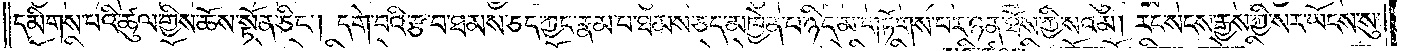དམིགས་པའི་ཚུལ་གྱིས་ཆོས་སྟོན་ཅིང༌། དགེ་བའི་རྩ་བ་ཐམས་ཅད་ཀྱང་རྣམ་པ་ཐམས་ཅད་མཁྱེན་པ་ཉིད་མ་གཏོགས་པ་ཉན་ཐོས་ཀྱི་སའམ། རང་སངས་རྒྱས་ཀྱི་སར་ཡོངས་སུ་
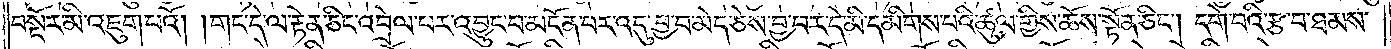བསྔོར་མི་འཇུག་པའོ། །གང་དེ་ལ་རྟེན་ཅིང་འབྲེལ་པར་འབྱུང་བ་མངོན་པར་འདུ་བྱ་བ་མེད་ཅེས་བྱ་བར་དེ་མི་དམིགས་པའི་ཚུལ་གྱིས་ཆོས་སྟོན་ཅིང༌། དགེ་བའི་རྩ་བ་ཐམས་
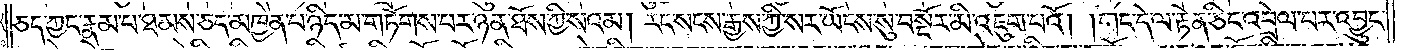ཅད་ཀྱང་རྣམ་པ་ཐམས་ཅད་མཁྱེན་པ་ཉིད་མ་གཏོགས་པར་ཉན་ཐོས་ཀྱི་སའམ། རང་སངས་རྒྱས་ཀྱི་སར་ཡོངས་སུ་བསྔོར་མི་འཇུག་པའོ། །གང་དེ་ལ་རྟེན་ཅིང་འབྲེལ་པར་འབྱུང་
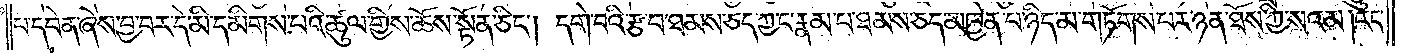པ་དབེན་ཞེས་བྱ་བར་དེ་མི་དམིགས་པའི་ཚུལ་གྱིས་ཆོས་སྟོན་ཅིང༌། དགེ་བའི་རྩ་བ་ཐམས་ཅད་ཀྱང་རྣམ་པ་ཐམས་ཅད་མཁྱེན་པ་ཉིད་མ་གཏོགས་པར་ཉན་ཐོས་ཀྱི་སའམ། རང་
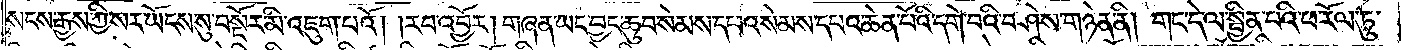སངས་རྒྱས་ཀྱི་སར་ཡོངས་སུ་བསྔོར་མི་འཇུག་པའོ། །རབ་འབྱོར། གཞན་ཡང་བྱང་ཆུབ་སེམས་དཔའ་སེམས་དཔའ་ཆེན་པོའི་དགེ་བའི་བཤེས་གཉེན་ནི། གང་དེ་ལ་སྦྱིན་པའི་ཕ་རོལ་ཏུ་
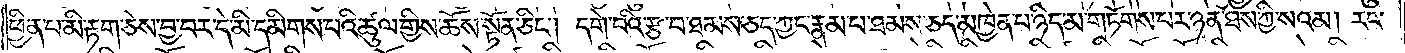ཕྱིན་པ་མི་རྟག་ཅེས་བྱ་བར་དེ་མི་དམིགས་པའི་ཚུལ་གྱིས་ཆོས་སྟོན་ཅིང༌། དགེ་བའི་རྩ་བ་ཐམས་ཅད་ཀྱང་རྣམ་པ་ཐམས་ཅད་མཁྱེན་པ་ཉིད་མ་གཏོགས་པར་ཉན་ཐོས་ཀྱི་སའམ། རང་
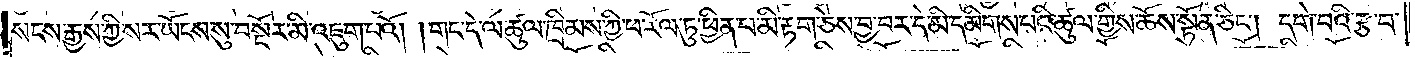སངས་རྒྱས་ཀྱི་སར་ཡོངས་སུ་བསྔོར་མི་འཇུག་པའོ། །གང་དེ་ལ་ཚུལ་ཁྲིམས་ཀྱི་ཕ་རོལ་ཏུ་ཕྱིན་པ་མི་རྟག་ཅེས་བྱ་བར་དེ་མི་དམིགས་པའི་ཚུལ་གྱིས་ཆོས་སྟོན་ཅིང༌། དགེ་བའི་རྩ་བ་
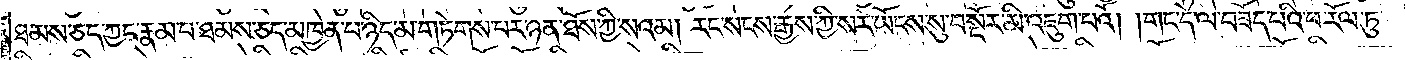ཐམས་ཅད་ཀྱང་རྣམ་པ་ཐམས་ཅད་མཁྱེན་པ་ཉིད་མ་གཏོགས་པར་ཉན་ཐོས་ཀྱི་སའམ། རང་སངས་རྒྱས་ཀྱི་སར་ཡོངས་སུ་བསྔོར་མི་འཇུག་པའོ། །གང་དེ་ལ་བཟོད་པའི་ཕ་རོལ་ཏུ་
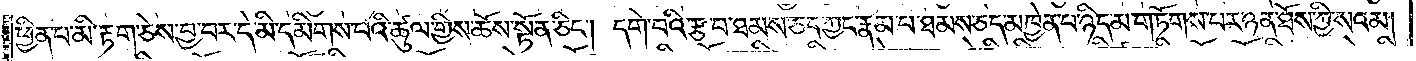ཕྱིན་པ་མི་རྟག་ཅེས་བྱ་བར་དེ་མི་དམིགས་པའི་ཚུལ་གྱིས་ཆོས་སྟོན་ཅིང༌། དགེ་བའི་རྩ་བ་ཐམས་ཅད་ཀྱང་རྣམ་པ་ཐམས་ཅད་མཁྱེན་པ་ཉིད་མ་གཏོགས་པར་ཉན་ཐོས་ཀྱི་སའམ།
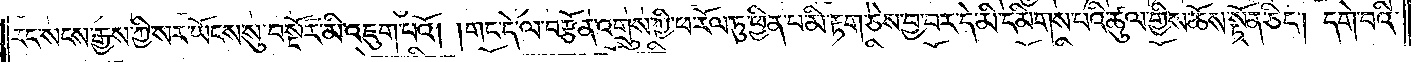རང་སངས་རྒྱས་ཀྱི་སར་ཡོངས་སུ་བསྔོར་མི་འཇུག་པའོ། །གང་དེ་ལ་བརྩོན་འགྲུས་ཀྱི་ཕ་རོལ་ཏུ་ཕྱིན་པ་མི་རྟག་ཅེས་བྱ་བར་དེ་མི་དམིགས་པའི་ཚུལ་གྱིས་ཆོས་སྟོན་ཅིང༌། དགེ་བའི་
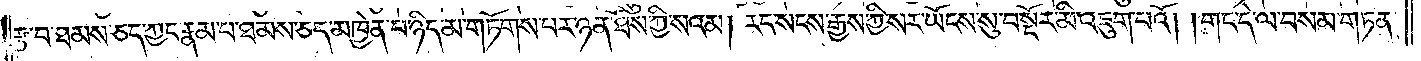རྩ་བ་ཐམས་ཅད་ཀྱང་རྣམ་པ་ཐམས་ཅད་མཁྱེན་པ་ཉིད་མ་གཏོགས་པར་ཉན་ཐོས་ཀྱི་སའམ། རང་སངས་རྒྱས་ཀྱི་སར་ཡོངས་སུ་བསྔོར་མི་འཇུག་པའོ། །གང་དེ་ལ་བསམ་གཏན་
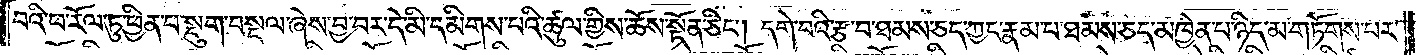བའི་ཕ་རོལ་ཏུ་ཕྱིན་པ་སྡུག་བསྔལ་ཞེས་བྱ་བར་དེ་མི་དམིགས་པའི་ཚུལ་གྱིས་ཆོས་སྟོན་ཅིང༌། དགེ་བའི་རྩ་བ་ཐམས་ཅད་ཀྱང་རྣམ་པ་ཐམས་ཅད་མཁྱེན་པ་ཉིད་མ་གཏོགས་པར་
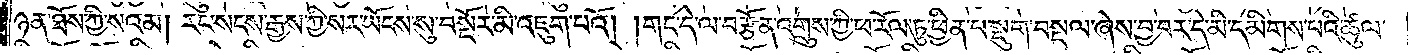ཉན་ཐོས་ཀྱི་སའམ། རང་སངས་རྒྱས་ཀྱི་སར་ཡོངས་སུ་བསྔོར་མི་འཇུག་པའོ། །གང་དེ་ལ་བརྩོན་འགྲུས་ཀྱི་ཕ་རོལ་ཏུ་ཕྱིན་པ་སྡུག་བསྔལ་ཞེས་བྱ་བར་དེ་མི་དམིགས་པའི་ཚུལ་
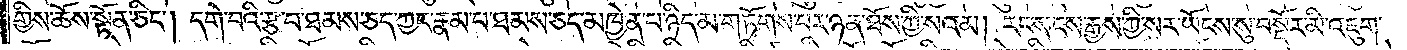གྱིས་ཆོས་སྟོན་ཅིང༌། དགེ་བའི་རྩ་བ་ཐམས་ཅད་ཀྱང་རྣམ་པ་ཐམས་ཅད་མཁྱེན་པ་ཉིད་མ་གཏོགས་པར་ཉན་ཐོས་ཀྱི་སའམ། རང་སངས་རྒྱས་ཀྱི་སར་ཡོངས་སུ་བསྔོར་མི་འཇུག་
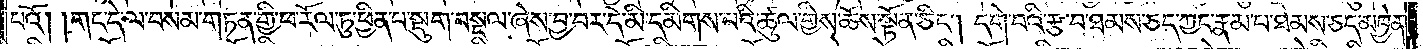པའོ། །གང་དེ་ལ་བསམ་གཏན་གྱི་ཕ་རོལ་ཏུ་ཕྱིན་པ་སྡུག་བསྔལ་ཞེས་བྱ་བར་དེ་མི་དམིགས་པའི་ཚུལ་གྱིས་ཆོས་སྟོན་ཅིང༌། དགེ་བའི་རྩ་བ་ཐམས་ཅད་ཀྱང་རྣམ་པ་ཐམས་ཅད་མཁྱེན་
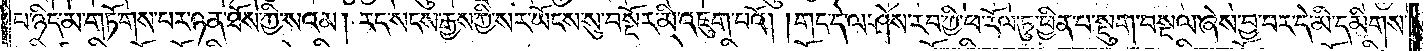པ་ཉིད་མ་གཏོགས་པར་ཉན་ཐོས་ཀྱི་སའམ། རང་སངས་རྒྱས་ཀྱི་སར་ཡོངས་སུ་བསྔོར་མི་འཇུག་པའོ། །གང་དེ་ལ་ཤེས་རབ་ཀྱི་ཕ་རོལ་ཏུ་ཕྱིན་པ་སྡུག་བསྔལ་ཞེས་བྱ་བར་དེ་མི་དམིགས་
